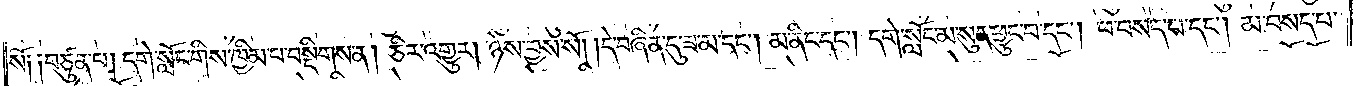སོ༑ ༑བཙུན་པ། དགེ་སློང་གིས་ཁྱིམ་པ་བསྡིགས་ན། ཅིར་འགྱུར། ཉེས་བྱས་སོ། །དེ་བཞིན་དུ་ཟ་མ་དང༌། མ་ནིང་དང༌། དགེ་སློང་མ་སུན་ཕྱུང་བ་དང༌། ཕ་བསད་པ་དང༌། མ་བསད་པ་
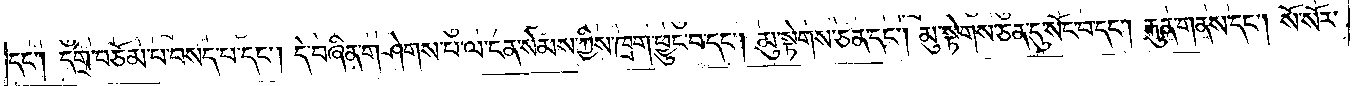དང༌། དགྲ་བཅོམ་པ་བསད་པ་དང༌། དེ་བཞིན་གཤེགས་པ་ལ་ངན་སེམས་ཀྱིས་ཁྲག་ཕྱུང་བ་དང༌། མུ་སྟེགས་ཅན་དང༌། མུ་སྟེགས་ཅན་དུ་སོང་བ་དང༌། རྐུན་གནས་དང༌། སོ་སོར་
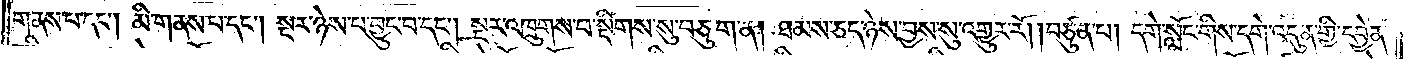གནས་པ་དང༌། མི་གནས་པ་དང༌། སྔར་ཉེས་པ་བྱུང་བ་དང༌། སྔར་འཁྲུགས་པ་སྡིགས་སུ་བཅུག་ན། ཐམས་ཅད་ཉེས་བྱས་སུ་འགྱུར་རོ། །བཙུན་པ། དགེ་སློང་གིས་དགེ་འདུན་གྱི་དབྱེན་
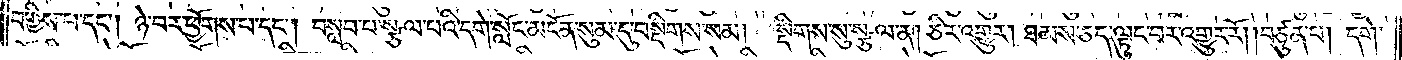བགྱིས་པ་དང༌། ཉེ་བར་ཕྱོགས་པ་དང༌། བསླབ་པ་སྩལ་བའི་དགེ་སློང་མངོན་སུམ་དུ་བསྡིགས་སམ། སྡིགས་སུ་སྩལ་ན། ཅིར་འགྱུར། ཐམས་ཅད་ལྟུང་བར་འགྱུར་རོ། །བཙུན་པ། དགེ་
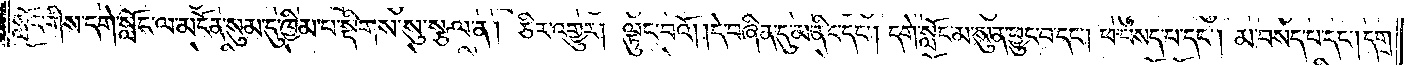སློང་གིས་དགེ་སློང་ལ་མངོན་སུམ་དུ་ཁྱིམ་པ་སྡིགས་སུ་སྩལ་ན། ཅིར་འགྱུར། ལྟུང་བའོ། །དེ་བཞིན་དུ་མ་ནིང་དང༌། དགེ་སློང་མ་སུན་ཕྱུང་བ་དང༌། ཕ་བསད་པ་དང༌། མ་བསད་པ་དང༌། དགྲ་
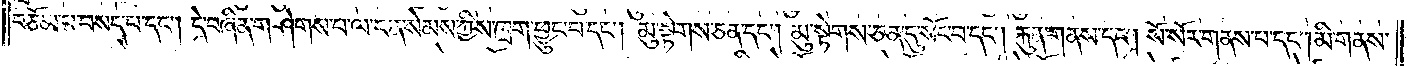བཅོམ་པ་བསད་པ་དང༌། དེ་བཞིན་གཤེགས་པ་ལ་ངན་སེམས་ཀྱིས་ཁྲག་ཕྱུང་བ་དང༌། མུ་སྟེགས་ཅན་དང༌། མུ་སྟེགས་ཅན་དུ་སོང་བ་དང༌། རྐུན་གནས་དང༌། སོ་སོར་གནས་པ་དང༌། མི་གནས་
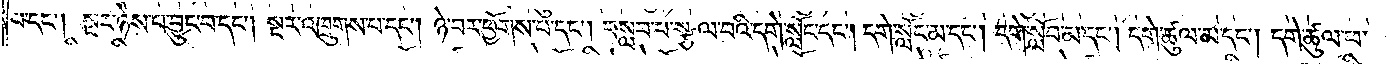པ་དང༌། སྔར་ཉེས་པ་བྱུང་བ་དང༌། སྔར་འཁྲུགས་པ་དང༌། ཉེ་བར་ཕྱོགས་པ་དང༌། བསླབ་པ་བསྩལ་བའི་དགེ་སློང་དང༌། དགེ་སློང་མ་དང༌། དགེ་སློབ་མ་དང༌། དགེ་ཚུལ་མ་དང༌། དགེ་ཚུལ་ཕ་
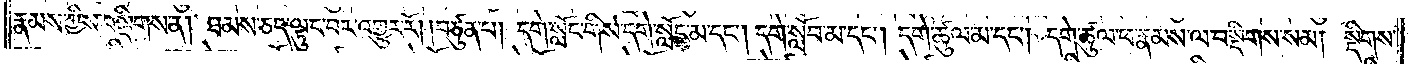རྣམས་ཀྱིས་བསྡིགས་ན། ཐམས་ཅད་ལྟུང་བར་འགྱུར་རོ། །བཙུན་པ། དགེ་སློང་གིས་དགེ་སློང་མ་དང༌། དགེ་སློབ་མ་དང༌། དགེ་ཚུལ་མ་དང༌། དགེ་ཚུལ་ཕ་རྣམས་ལ་བསྡིགས་སམ། སྡིགས་
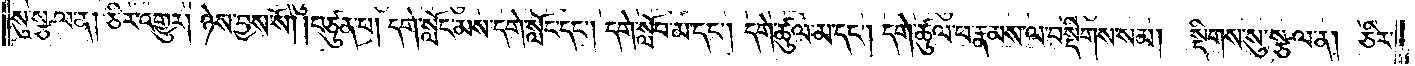སུ་སྩལ་ན། ཅིར་འགྱུར། ཉེས་བྱས་སོ། །བཙུན་པ། དགེ་སློང་མས་དགེ་སློང་དང༌། དགེ་སློབ་མ་དང༌། དགེ་ཚུལ་མ་དང༌། དགེ་ཚུལ་ཕ་རྣམས་ལ་བསྡིགས་སམ།<gap>སྡིགས་སུ་སྩལ་ན། ཅིར་
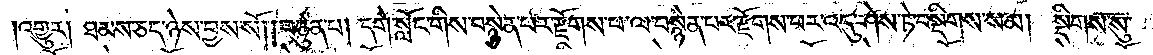།འགྱུར། ཐམས་ཅད་ཉེས་བྱས་སོ། །བཙུན་པ། དགེ་སློང་གིས་བསྙེན་པར་རྫོགས་པ་ལ་བསྙེན་པར་རྫོགས་པར་འདུ་ཤེས་ཏེ་བསྡིགས་སམ། སྡིགས་སུ་
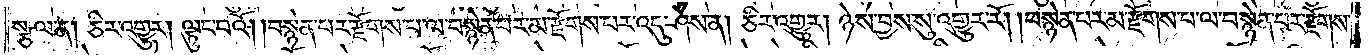སྩལ་ན། ཅིར་འགྱུར། ལྟུང་བའོ། །བསྙེན་པར་རྫོགས་པ་ལ་བསྙེན་པར་མ་རྫོགས་པར་འདུ་ཤེས་ན། ཅིར་འགྱུར། ཉེས་བྱས་སུ་འགྱུར་རོ། །བསྙེན་པར་མ་རྫོགས་པ་ལ་བསྙེན་པར་རྫོགས་
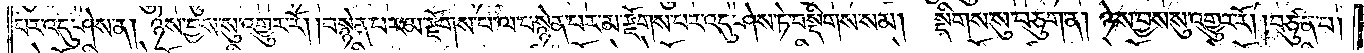པར་འདུ་ཤེས་ན། ཉེས་བྱས་སུ་འགྱུར་རོ། །བསྙེན་པར་མ་རྫོགས་པ་ལ་བསྙེན་པར་མ་རྫོགས་པར་འདུ་ཤེས་ཏེ་བསྡིགས་སམ། སྡིགས་སུ་བཅུག་ན། ཉེས་བྱས་སུ་འགྱུར་རོ། །བཙུན་པ།
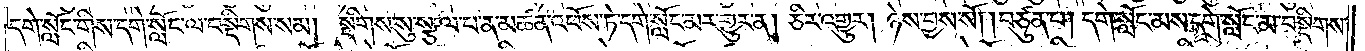དགེ་སློང་གིས་དགེ་སློང་ལ་བསྡིགས་སམ། སྡིགས་སུ་སྩལ་པ་ན་མཚན་འཕོས་ཏེ་དགེ་སློང་མར་གྱུར་ན། ཅིར་འགྱུར། ཉེས་བྱས་སོ། །བཙུན་པ། དགེ་སློང་མས་དགེ་སློང་མ་བསྡིགས་
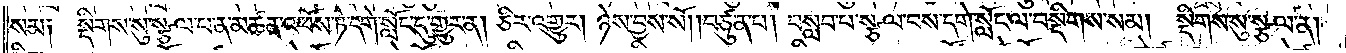སམ། སྡིགས་སུ་སྩལ་པ་ན་མཚན་འཕོས་ཏེ་དགེ་སློང་དུ་གྱུར་ན། ཅིར་འགྱུར། ཉེས་བྱས་སོ། །བཙུན་པ། བསླབ་པ་སྩལ་བས་དགེ་སློང་ལ་བསྡིགས་སམ། སྡིགས་སུ་སྩལ་ན།
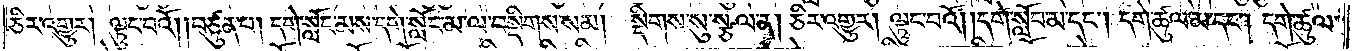ཅིར་འགྱུར། ལྟུང་བའོ། །བཙུན་པ། དགེ་སློང་མས་དགེ་སློང་མ་ལ་བསྡིགས་སམ། སྡིགས་སུ་སྩལ་ན། ཅིར་འགྱུར། ལྟུང་བའོ། །དགེ་སློབ་མ་དང༌། དགེ་ཚུལ་མ་དང༌། དགེ་ཚུལ་
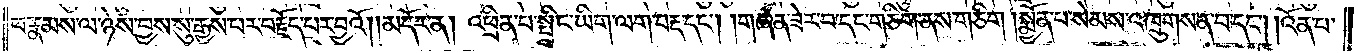ཕ་རྣམས་ལ་ཉེས་བྱས་སུ་རྒྱས་པར་བརྗོད་པར་བྱའོ།    །མདོར་ན། འཕྲིན་པ་སྤྲིང་ཡིག་ལག་བརྡ་དང༌། །གཞན་ཟེར་བ་དང་གཅིག་ནས་གཅིག །སྨྱོན་པ་སེམས་འཁྲུགས་ན་བ་དང༌། །འོན་པ་
